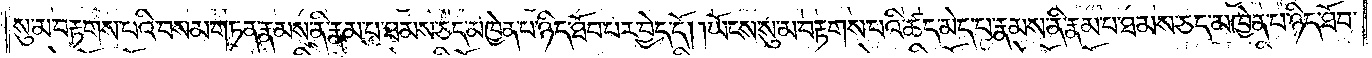སུ་མ་བརྟགས་པའི་བསམ་གཏན་རྣམས་ནི་རྣམ་པ་ཐམས་ཅད་མཁྱེན་པ་ཉིད་ཐོབ་པར་བྱེད་དོ། །ཡོངས་སུ་མ་བརྟགས་པའི་ཚད་མེད་པ་རྣམས་ནི་རྣམ་པ་ཐམས་ཅད་མཁྱེན་པ་ཉིད་ཐོབ་
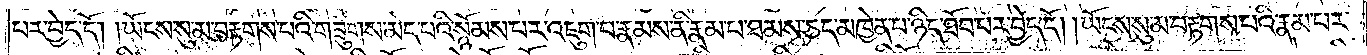པར་བྱེད་དོ། །ཡོངས་སུ་མ་བརྟགས་པའི་གཟུགས་མེད་པའི་སྙོམས་པར་འཇུག་པ་རྣམས་ནི་རྣམ་པ་ཐམས་ཅད་མཁྱེན་པ་ཉིད་ཐོབ་པར་བྱེད་དོ། །ཡོངས་སུ་མ་བརྟགས་པའི་རྣམ་པར་
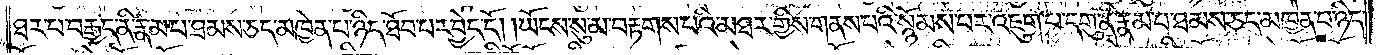ཐར་པ་བརྒྱད་ནི་རྣམ་པར་ཐམས་ཅད་མཁྱེན་པ་ཉིད་ཐོབ་པར་བྱེད་དོ། །ཡོངས་སུ་མ་བརྟགས་པའི་མཐར་གྱིས་གནས་པའི་སྙོམས་པར་འཇུག་པ་དག་ནི་རྣམ་པ་ཐམས་ཅད་མཁྱེན་པ་ཉིད་
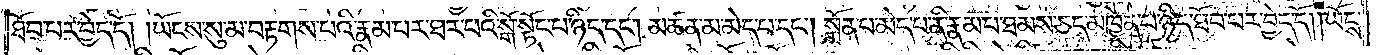ཐོབ་པར་བྱེད་དོ། །ཡོངས་སུ་མ་བརྟགས་པའི་རྣམ་པར་ཐར་པའི་སྒོ་སྟོང་པ་ཉིད་དང༌། མཚན་མ་མེད་པ་དང༌། སྨོན་པ་མེད་པ་ནི་རྣམ་པ་ཐམས་ཅད་མཁྱེན་པ་ཉིད་ཐོབ་པར་བྱེད་དོ། །ཡོངས་
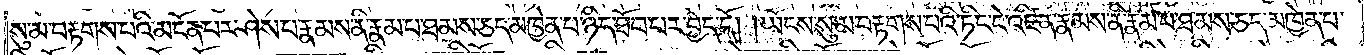སུ་མ་བརྟགས་པའི་མངོན་པར་ཤེས་པ་རྣམས་ནི་རྣམ་པ་ཐམས་ཅད་མཁྱེན་པ་ཉིད་ཐོབ་པར་བྱེད་དོ། །ཡོངས་སུ་མ་བརྟགས་པའི་ཏིང་ངེ་འཛིན་རྣམས་ནི་རྣམ་པ་ཐམས་ཅད་མཁྱེན་པ་
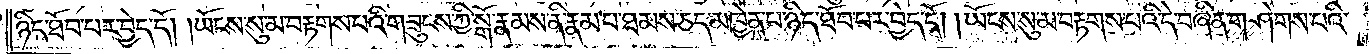ཉིད་ཐོབ་པར་བྱེད་དོ། །ཡོངས་སུ་མ་བརྟགས་པའི་གཟུངས་ཀྱི་སྒོ་རྣམས་ནི་རྣམ་པ་ཐམས་ཅད་མཁྱེན་པ་ཉིད་ཐོབ་པར་བྱེད་དོ། །ཡོངས་སུ་མ་བརྟགས་པའི་དེ་བཞིན་གཤེགས་པའི་
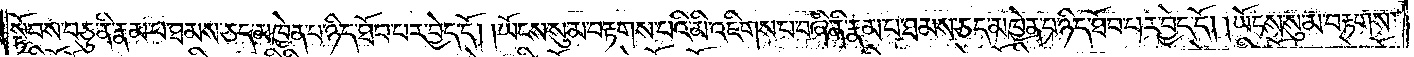སྟོབས་བཅུ་ནི་རྣམ་པ་ཐམས་ཅད་མཁྱེན་པ་ཉིད་ཐོབ་པར་བྱེད་དོ། །ཡོངས་སུ་མ་བརྟགས་པའི་མི་འཇིགས་པ་བཞི་ནི་རྣམ་པ་ཐམས་ཅད་མཁྱེན་པ་ཉིད་ཐོབ་པར་བྱེད་དོ། །ཡོངས་སུ་མ་བརྟགས་
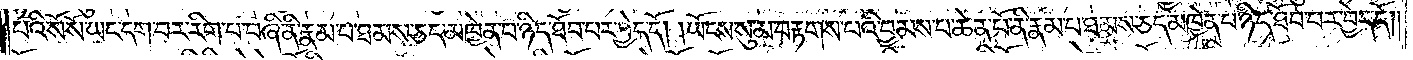པའི་སོ་སོ་ཡང་དག་པར་རིག་པ་བཞི་ནི་རྣམ་པ་ཐམས་ཅད་མཁྱེན་པ་ཉིད་ཐོབ་པར་བྱེད་དོ། །ཡོངས་སུ་མ་བརྟགས་པའི་བྱམས་པ་ཆེན་པོ་ནི་རྣམ་པ་ཐམས་ཅད་མཁྱེན་པ་ཉིད་ཐོབ་པར་བྱེད་དོ། །
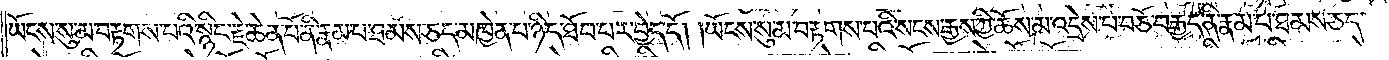ཡོངས་སུ་མ་བརྟགས་པའི་སྙིང་རྗེ་ཆེན་པོ་ནི་རྣམ་པ་ཐམས་ཅད་མཁྱེན་པ་ཉིད་ཐོབ་པར་བྱེད་དོ། །ཡོངས་སུ་མ་བརྟགས་པའི་སངས་རྒྱས་ཀྱི་ཆོས་མ་འདྲེས་པ་བཅོ་བརྒྱད་ནི་རྣམ་པ་ཐམས་ཅད་
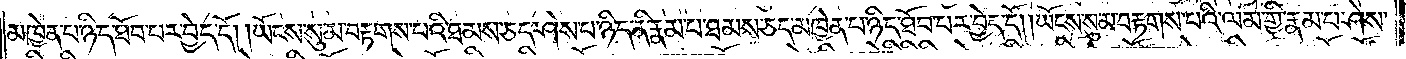མཁྱེན་པ་ཉིད་ཐོབ་པར་བྱེད་དོ། །ཡོངས་སུ་མ་བརྟགས་པའི་ཐམས་ཅད་ཤེས་པ་ཉིད་ནི་རྣམ་པ་ཐམས་ཅད་མཁྱེན་པ་ཉིད་ཐོབ་པར་བྱེད་དོ། །ཡོངས་སུ་མ་བརྟགས་པའི་ལམ་གྱི་རྣམ་པ་ཤེས་
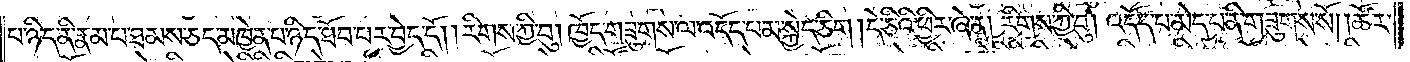པ་ཉིད་ནི་རྣམ་པ་ཐམས་ཅད་མཁྱེན་པ་ཉིད་ཐོབ་པར་བྱེད་དོ། །རིགས་ཀྱི་བུ། ཁྱེད་གཟུགས་ལ་འདོད་པ་མ་སྐྱེད་ཅིག །དེ་ཅིའི་ཕྱིར་ཞེ་ན། རིགས་ཀྱི་བུ། འདོད་པ་མེད་པ་ནི་གཟུགས་སོ། །ཚོར་
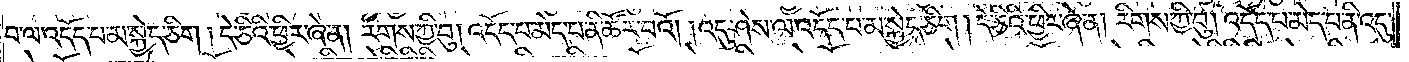བ་ལ་འདོད་པ་མ་སྐྱེད་ཅིག །དེ་ཅིའི་ཕྱིར་ཞེ་ན། རིགས་ཀྱི་བུ། འདོད་པ་མེད་པ་ནི་ཚོར་བའོ། །འདུ་ཤེས་ལ་འདོད་པ་མ་སྐྱེད་ཅིག །དེ་ཅིའི་ཕྱིར་ཞེ་ན། རིགས་ཀྱི་བུ། འདོད་པ་མེད་པ་ནི་འདུ་
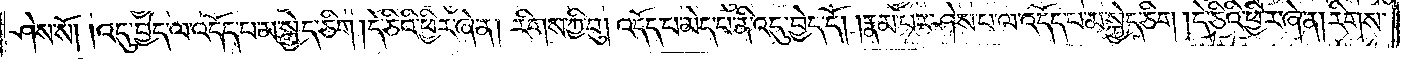ཤེས་སོ། །འདུ་བྱེད་ལ་འདོད་པ་མ་སྐྱེད་ཅིག །དེ་ཅིའི་ཕྱིར་ཞེ་ན། རིགས་ཀྱི་བུ། འདོད་པ་མེད་པ་ནི་འདུ་བྱེད་དོ། །རྣམ་པར་ཤེས་པ་ལ་འདོད་པ་མ་སྐྱེད་ཅིག །དེ་ཅིའི་ཕྱིར་ཞེ་ན། རིགས་
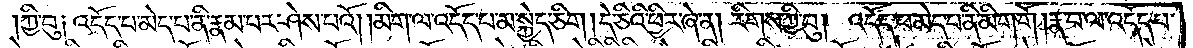ཀྱི་བུ། འདོད་པ་མེད་པ་ནི་རྣམ་པར་ཤེས་པའོ། །མིག་ལ་འདོད་པ་མ་སྐྱེད་ཅིག །དེ་ཅིའི་ཕྱིར་ཞེ་ན། རིགས་ཀྱི་བུ་འདོད་པ་མེད་པ་ནི་མིག་གོ །རྣ་བ་ལ་འདོད་པ་
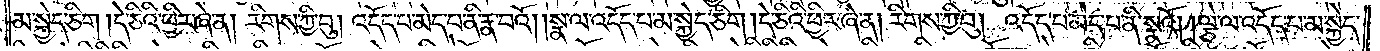མ་སྐྱེད་ཅིག །དེ་ཅིའི་ཕྱིར་ཞེ་ན། རིགས་ཀྱི་བུ། འདོད་པ་མེད་པ་ནི་རྣ་བའོ། །སྣ་ལ་འདོད་པ་མ་སྐྱེད་ཅིག །དེ་ཅིའི་ཕྱིར་ཞེ་ན། རིགས་ཀྱི་བུ་འདོད་པ་མེད་པ་ནི་སྣའོ། །ལྕེ་ལ་འདོད་པ་མ་སྐྱེད་
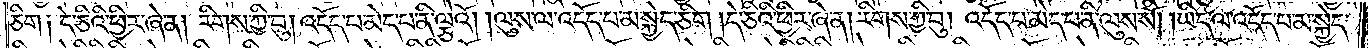ཅིག །དེ་ཅིའི་ཕྱིར་ཞེ་ན། རིགས་ཀྱི་བུ། འདོད་པ་མེད་པ་ནི་ལྕེའོ། །ལུས་ལ་འདོད་པ་མ་སྐྱེད་ཅིག །དེ་ཅིའི་ཕྱིར་ཞེ་ན། རིགས་ཀྱི་བུ། འདོད་པ་མེད་པ་ནི་ལུས་སོ། །ཡིད་ལ་འདོད་པ་མ་སྐྱེད་
